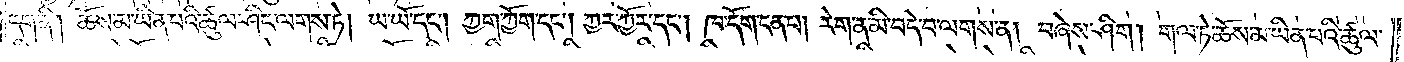དག་ནི། ཆོས་མ་ཡིན་པའི་ཚུལ་ཤིང་ལགས་ཏེ། ཡ་ཡོ་དང༌། ཀྱག་ཀྱོག་དང༌། ཀྱར་ཀྱོར་དང༌། ཁ་དོག་ངན་པ། རེག་ན་མི་བདེ་བ་ལགས་ན། བཞེས་ཤིག །གལ་ཏེ་ཆོས་མ་ཡིན་པའི་ཚུལ་
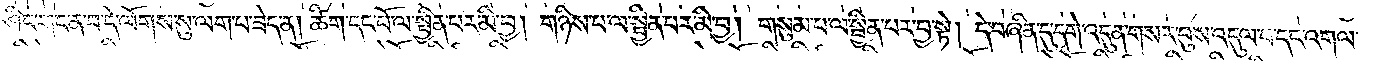ཤིང་གང་ན་བ་དེ་ལོགས་སུ་ལག་པ་ཟེད་ན། ཚིག་དང་པོ་ལ་སྦྱིན་པར་མི་བྱ། གཉིས་པ་ལ་སྦྱིན་པར་མི་བྱ། གསུམ་པ་ལ་སྦྱིན་པར་བྱ་སྟེ། དེ་བཞིན་དུ་དགེ་འདུན་གསར་བུས་འདུལ་བ་དང་འགལ་
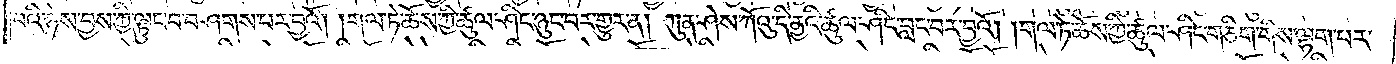བའི་ཉེས་བྱས་ཀྱི་ལྟུང་བ་བཤགས་པར་བྱའོ། །གལ་ཏེ་ཆོས་ཀྱི་ཚུལ་ཤིང་ཉུང་བར་གྱུར་ན། ཀུན་ཤེས་ཀོའུ་དི་ནྱའི་ཚུལ་ཤིང་བླང་བར་བྱའོ། །གལ་ཏེ་ཆོས་ཀྱི་ཚུལ་ཤིང་གཅིག་གིས་ལྷག་པར་
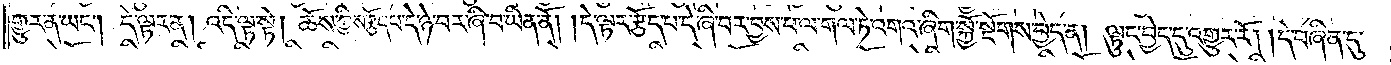གྱུར་ན་ཡང༌། དེ་ལྟར་ན། འདི་ལྟ་སྟེ། ཆོས་ཀྱིས་རྩོད་པ་དེ་ཉེ་བར་ཞི་བ་ཡིན་ནོ། །དེ་ལྟར་རྩོད་པ་དེ་ཞི་བར་བྱས་པ་ལ་གལ་ཏེ་འགའ་ཞིག་སྐྱོ་སྔོགས་བྱེད་ན། ལྟུང་བྱེད་དུ་འགྱུར་རོ། །དེ་བཞིན་དུ་
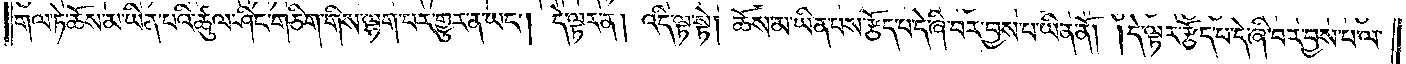གལ་ཏེ་ཆོས་མ་ཡིན་པའི་ཚུལ་ཤིང་གཅིག་གིས་ལྷག་པར་གྱུར་ན་ཡང༌། དེ་ལྟར་ན། འདི་ལྟ་སྟེ། ཆོས་མ་ཡིན་པས་རྩོད་པ་དེ་ཞི་བར་བྱས་པ་ཡིན་ནོ། །དེ་ལྟར་རྩོད་པ་དེ་ཞི་བར་བྱས་པ་ལ་
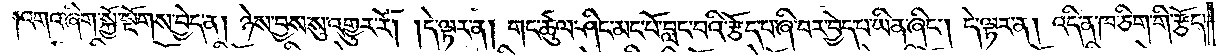འགའ་ཞིག་སྐྱོ་སྔོགས་བྱེད་ན། ཉེས་བྱས་སུ་འགྱུར་རོ། །དེ་ལྟར་ན། གང་ཚུལ་ཤིང་མང་པོ་བླང་བའི་རྩོད་པ་ཞི་བར་བྱེད་པ་ཡིན་ཞིང༌། དེ་ལྟར་ན། འདི་ན་ཁ་ཅིག་གི་རྩོད་
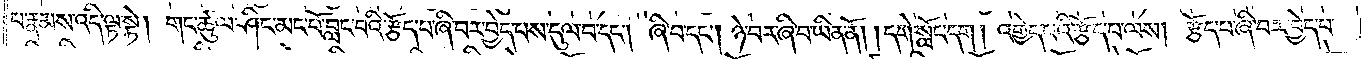པ་རྣམས་འདི་ལྟ་སྟེ། གང་ཚུལ་ཤིང་མང་པོ་བླང་བའི་རྩོད་པ་ཞི་བར་བྱེད་པས་དུལ་བ་དང༌། ཞི་བ་དང༌། ཉེ་བར་ཞི་བ་ཡིན་ནོ། །དགེ་སློང་དག །འགྱེད་པའི་རྩོད་པ་ལས། རྩོད་པ་ཞི་བར་བྱེད་པ་
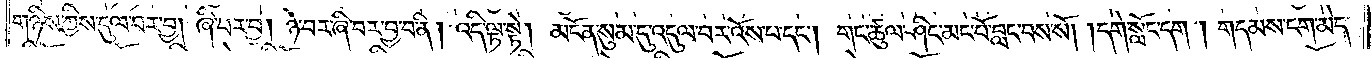གཉིས་ཀྱིས་དུལ་བར་བྱ། ཞི་བར་བྱ། ཉེ་བར་ཞི་བར་བྱ་བ་ནི། འདི་ལྟ་སྟེ། མངོན་སུམ་དུ་འདུལ་བར་འོས་པ་དང༌། གང་ཚུལ་ཤིང་མང་པོ་བླང་བས་སོ། །དགེ་སློང་དག །གདམས་ངག་མེད་
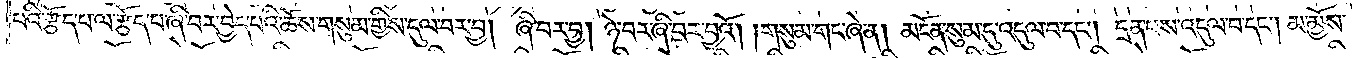པའི་རྩོད་པ་ལ་རྩོད་པ་ཞི་བར་བྱེད་པའི་ཆོས་གསུམ་གྱིས་དུལ་བར་བྱ། ཞི་བར་བྱ། ཉེ་བར་ཞི་བར་བྱའོ། །གསུམ་གང་ཞེ་ན། མངོན་སུམ་དུ་འདུལ་བ་དང༌། དྲན་པས་འདུལ་བ་དང༌། མ་མྱོས་
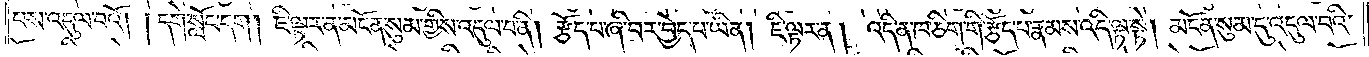པས་འདུལ་བའོ། །དགེ་སློང་དག །ཇི་ལྟར་ན་མངོན་སུམ་གྱིས་འདུལ་བ་ནི། རྩོད་པ་ཞི་བར་བྱེད་པ་ཡིན། ཇི་ལྟར་ན། འདི་ན་ཁ་ཅིག་གི་རྩོད་པ་རྣམས་འདི་ལྟ་སྟེ། མངོན་སུམ་དུ་འདུལ་བའི་
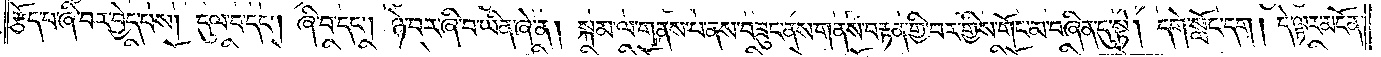རྩོད་པ་ཞི་བར་བྱེད་པས། དུལ་བ་དང༌། ཞི་བ་དང༌། ཉེ་བར་ཞི་བ་ཡིན་ཞེ་ན། སྐམ་ལ་གནས་པ་ནས་བཟུང་ནས་གནས་བརྟན་གྱི་བར་གྱིས་གོང་མ་བཞིན་དུ་སྟེ། དགེ་སློང་དག། དེ་ལྟར་མངོན་
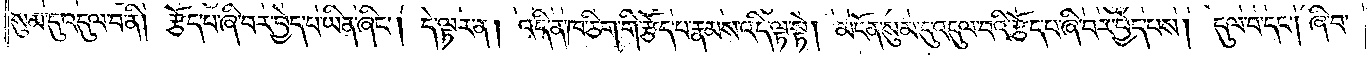སུམ་དུ་འདུལ་བ་ནི། རྩོད་པ་ཞི་བར་བྱེད་པ་ཡིན་ཞིང༌། དེ་ལྟར་ན། འདི་ན་ཁ་ཅིག་གི་རྩོད་པ་རྣམས་འདི་ལྟ་སྟེ། མངོན་སུམ་དུ་འདུལ་བའི་རྩོད་པ་ཞི་བར་བྱེད་པས། དུལ་བ་དང༌། ཞི་བ་
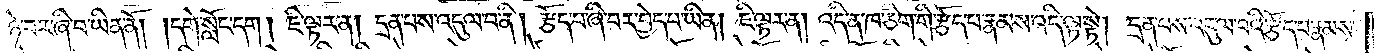དང་༑ ཉེ་བར་ཞི་བ་ཡིན་ནོ། །དགེ་སློང་དག །ཇི་ལྟར་ན། དྲན་པས་འདུལ་བ་ནི། རྩོད་པ་ཞི་བར་བྱེད་པ་ཡིན། ཇི་ལྟར་ན། འདི་ན་ཁ་ཅིག་གི་རྩོད་པ་རྣམས་འདི་ལྟ་སྟེ། དྲན་པས་འདུལ་བའི་རྩོད་པ་རྣམས་
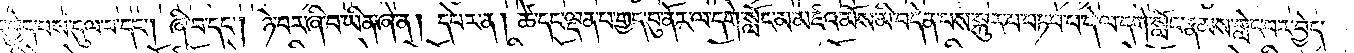ཞི་བར་བྱེད་པས་དུལ་བ་དང༌། ཞི་བ་དང༌། ཉེ་བར་ཞི་བ་ཡིན་ཞེ་ན། དཔེར་ན། ཚེ་དང་ལྡན་པ་གྱད་བུ་ནོར་ལ་དགེ་སློང་མ་མཛའ་མོས་མི་བདེན་པས་སྐུར་པ་བཏབ་པ་དེ་ལ་དགེ་སློང་རྣམས་གླེང་བར་བྱེད་
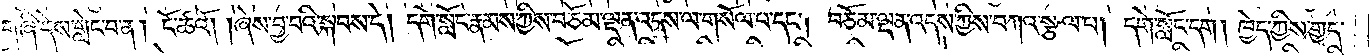དེ༑ གཞི་དེས་གླེང་བ་ན། ངོ་ཚའོ། །ཞེས་བྱ་བའི་སྐབས་དེ། དགེ་སློང་རྣམས་ཀྱིས་བཅོམ་ལྡན་འདས་ལ་གསོལ་པ་དང༌། བཅོམ་ལྡན་འདས་ཀྱིས་བཀའ་སྩལ་པ། དགེ་སློང་དག །ཁྱེད་ཀྱིས་གྱད་
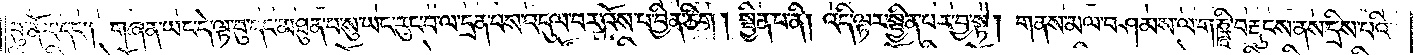བུ་ནོར་དང༌། གཞན་ཡང་དེ་ལྟ་བུ་དང་མཐུན་པ་སུ་ཡང་རུང་པ་ལ་དྲན་པས་འདུལ་བར་འོས་པ་བྱིན་ཅིག །སྦྱིན་པ་ནི། འདི་ལྟར་སྦྱིན་པར་བྱ་སྟེ། གནས་མལ་བཤམས་ལ་གཎྜཱི་བརྡུངས་ནས་དྲིས་པའི་
